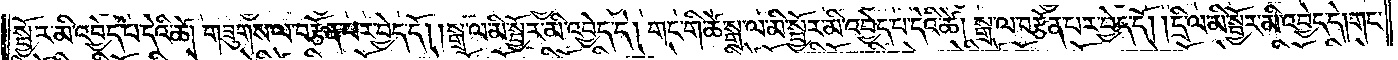སྦྱོར་མི་འབྱེད་པ་དེའི་ཚེ། གཟུགས་ལ་བརྩོན་པར་བྱེད་དོ། །སྒྲ་ལ་མི་སྦྱོར་མི་འབྱེད་དེ། གང་གི་ཚེ་སྒྲ་ལ་མི་སྦྱོར་མི་འབྱེད་པ་དེའི་ཚེ། སྒྲ་ལ་བརྩོན་པར་བྱེད་དོ། །དྲི་ལ་མི་སྦྱོར་མི་འབྱེད་དེ། གང་
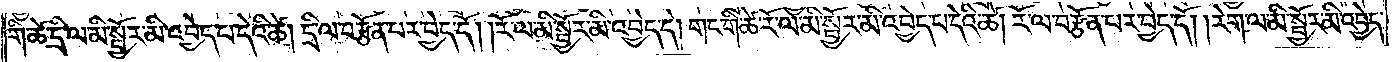གི་ཚེ་དྲི་ལ་མི་སྦྱོར་མི་འབྱེད་པ་དེའི་ཚེ། དྲི་ལ་བརྩོན་པར་བྱེད་དོ། །རོ་ལ་མི་སྦྱོར་མི་འབྱེད་དེ། གང་གི་ཚེ་རོ་ལ་མི་སྦྱོར་མི་འབྱེད་པ་དེའི་ཚེ། རོ་ལ་བརྩོན་པར་བྱེད་དོ། །རེག་ལ་མི་སྦྱོར་མི་འབྱེད་
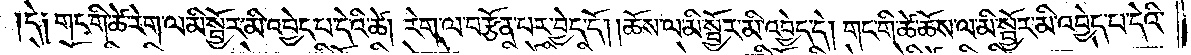དེ༑ གང་གི་ཚེ་རེག་ལ་མི་སྦྱོར་མི་འབྱེད་པ་དེའི་ཚེ། རེག་ལ་བརྩོན་པར་བྱེད་དོ། །ཆོས་ལ་མི་སྦྱོར་མི་འབྱེད་དེ། གང་གི་ཚེ་ཆོས་ལ་མི་སྦྱོར་མི་འབྱེད་པ་དེའི་
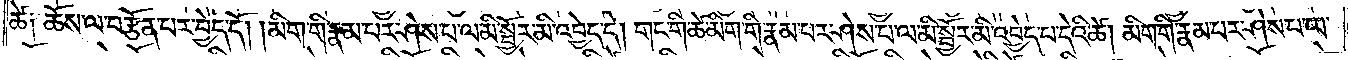ཚེ༑ ཆོས་ལ་བརྩོན་པར་བྱེད་དོ། །མིག་གི་རྣམ་པར་ཤེས་པ་ལ་མི་སྦྱོར་མི་འབྱེད་དེ། གང་གི་ཚེ་མིག་གི་རྣམ་པར་ཤེས་པ་ལ་མི་སྦྱོར་མི་འབྱེད་པ་དེའི་ཚེ། མིག་གི་རྣམ་པར་ཤེས་པ་ལ་
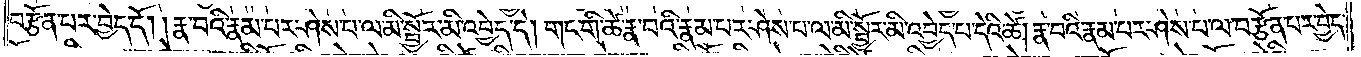བརྩོན་པར་བྱེད་དོ། །རྣ་བའི་རྣམ་པར་ཤེས་པ་ལ་མི་སྦྱོར་མི་འབྱེད་དེ། གང་གི་ཚེ་རྣ་བའི་རྣམ་པར་ཤེས་པ་ལ་མི་སྦྱོར་མི་འབྱེད་པ་དེའི་ཚེ། རྣ་བའི་རྣམ་པར་ཤེས་པ་ལ་བརྩོན་པར་བྱེད་
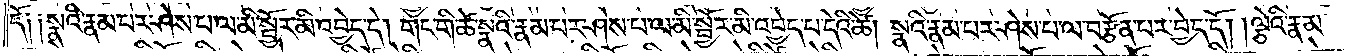དོ༑ ༑སྣའི་རྣམ་པར་ཤེས་པ་ལ་མི་སྦྱོར་མི་འབྱེད་དེ། གང་གི་ཚེ་སྣའི་རྣམ་པར་ཤེས་པ་ལ་མི་སྦྱོར་མི་འབྱེད་པ་དེའི་ཚེ། སྣའི་རྣམ་པར་ཤེས་པ་ལ་བརྩོན་པར་བྱེད་དོ། །ལྕེའི་རྣམ་
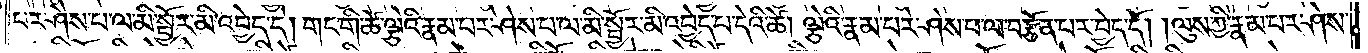པར་ཤེས་པ་ལ་མི་སྦྱོར་མི་འབྱེད་དེ། གང་གི་ཚེ་ལྕེའི་རྣམ་པར་ཤེས་པ་ལ་མི་སྦྱོར་མི་འབྱེད་པ་དེའི་ཚེ། ལྕེའི་རྣམ་པར་ཤེས་པ་ལ་བརྩོན་པར་བྱེད་དོ། །ལུས་ཀྱི་རྣམ་པར་ཤེས་
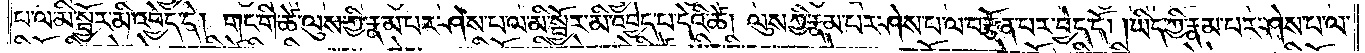པ་ལ་མི་སྦྱོར་མི་འབྱེད་དེ། གང་གི་ཚེ་ལུས་ཀྱི་རྣམ་པར་ཤེས་པ་ལ་མི་སྦྱོར་མི་འབྱེད་པ་དེའི་ཚེ། ལུས་ཀྱི་རྣམ་པར་ཤེས་པ་ལ་བརྩོན་པར་བྱེད་དོ། །ཡིད་ཀྱི་རྣམ་པར་ཤེས་པ་ལ་
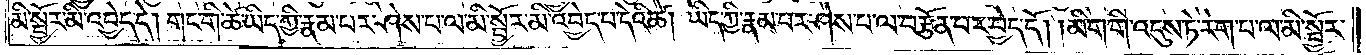མི་སྦྱོར་མི་འབྱེད་དེ། གང་གི་ཚེ་ཡིད་ཀྱི་རྣམ་པར་ཤེས་པ་ལ་མི་སྦྱོར་མི་འབྱེད་པ་དེའི་ཚེ། ཡིད་ཀྱི་རྣམ་པར་ཤེས་པ་ལ་བརྩོན་པར་བྱེད་དོ། །མིག་གི་འདུས་ཏེ་རེག་པ་ལ་མི་སྦྱོར་
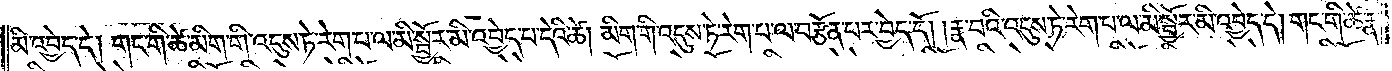མི་འབྱེད་དེ། གང་གི་ཚེ་མིག་གི་འདུས་ཏེ་རེག་པ་ལ་མི་སྦྱོར་མི་འབྱེད་པ་དེའི་ཚེ། མིག་གི་འདུས་ཏེ་རེག་པ་ལ་བརྩོན་པར་བྱེད་དོ། །རྣ་བའི་འདུས་ཏེ་རེག་པ་ལ་མི་སྦྱོར་མི་འབྱེད་དེ། གང་གི་ཚེ་རྣ་
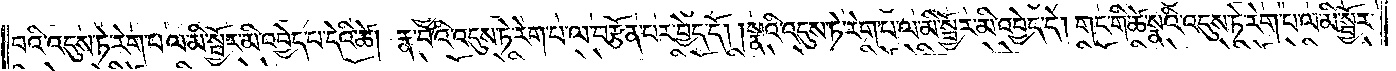བའི་འདུས་ཏེ་རེག་པ་ལ་མི་སྦྱོར་མི་འབྱེད་པ་དེའི་ཚེ། རྣ་བའི་འདུས་ཏེ་རེག་པ་ལ་བརྩོན་པར་བྱེད་དོ། །སྣའི་འདུས་ཏེ་རེག་པ་ལ་མི་སྦྱོར་མི་འབྱེད་དེ། གང་གི་ཚེ་སྣའི་འདུས་ཏེ་རེག་པ་ལ་མི་སྦྱོར་
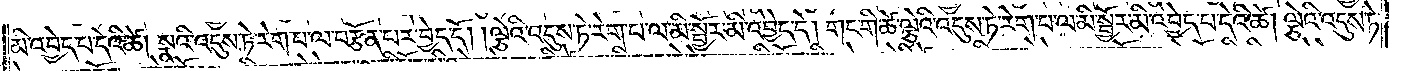མི་འབྱེད་པ་དེའི་ཚེ། སྣའི་འདུས་ཏེ་རེག་པ་ལ་བརྩོན་པར་བྱེད་དོ། །ལྕེའི་འདུས་ཏེ་རེག་པ་ལ་མི་སྦྱོར་མི་འབྱེད་དེ། གང་གི་ཚེ་ལྕེའི་འདུས་ཏེ་རེག་པ་ལ་མི་སྦྱོར་མི་འབྱེད་པ་དེའི་ཚེ། ལྕེའི་འདུས་ཏེ་
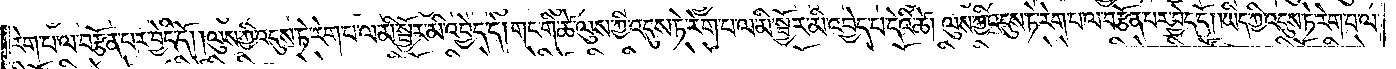རེག་པ་ལ་བརྩོན་པར་བྱེད་དོ། །ལུས་ཀྱི་འདུས་ཏེ་རེག་པ་ལ་མི་སྦྱོར་མི་འབྱེད་དེ། གང་གི་ཚེ་ལུས་ཀྱི་འདུས་ཏེ་རེག་པ་ལ་མི་སྦྱོར་མི་འབྱེད་པ་དེའི་ཚེ། ལུས་ཀྱི་འདུས་ཏེ་རེག་པ་ལ་བརྩོན་པར་བྱེད་དོ། །ཡིད་ཀྱི་འདུས་ཏེ་རེག་པ་ལ་
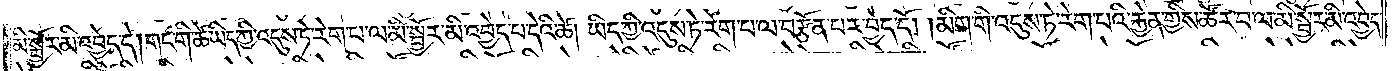མི་སྦྱོར་མི་འབྱེད་དེ། གང་གི་ཚེ་ཡིད་ཀྱི་འདུས་ཏེ་རེག་པ་ལ་མི་སྦྱོར་མི་འབྱེད་པ་དེའི་ཚེ། ཡིད་ཀྱི་འདུས་ཏེ་རེག་པ་ལ་བརྩོན་པར་བྱེད་དོ། །མིག་གི་འདུས་ཏེ་རེག་པའི་རྐྱེན་གྱིས་ཚོར་བ་ལ་མི་སྦྱོར་མི་འབྱེད་
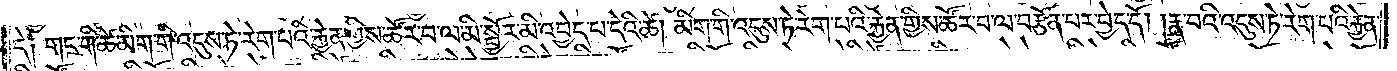དེ༑ གང་གི་ཚེ་མིག་གི་འདུས་ཏེ་རེག་པའི་རྐྱེན་གྱིས་ཚོར་བ་ལ་མི་སྦྱོར་མི་འབྱེད་པ་དེའི་ཚེ། མིག་གི་འདུས་ཏེ་རེག་པའི་རྐྱེན་གྱིས་ཚོར་བ་ལ་བརྩོན་པར་བྱེད་དོ། །རྣ་བའི་འདུས་ཏེ་རེག་པའི་རྐྱེན་
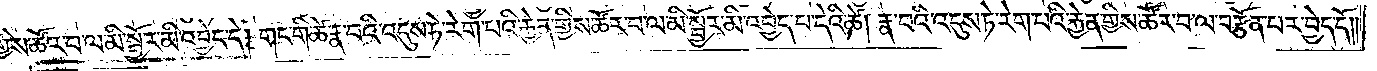གྱིས་ཚོར་བ་ལ་མི་སྦྱོར་མི་འབྱེད་དེ། གང་གི་ཚེ་རྣ་བའི་འདུས་ཏེ་རེག་པའི་རྐྱེན་གྱིས་ཚོར་བ་ལ་མི་སྦྱོར་མི་འབྱེད་པ་དེའི་ཚེ། རྣ་བའི་འདུས་ཏེ་རེག་པའི་རྐྱེན་གྱིས་ཚོར་བ་ལ་བརྩོན་པར་བྱེད་དོ། །
